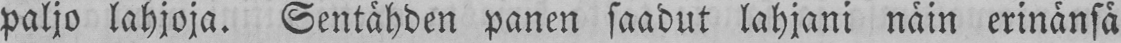paljo lahjoja. Sentähden panen saadut lahjani näin erinänsä
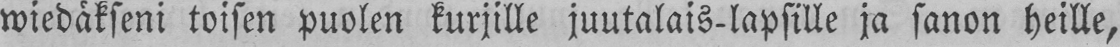wiedäkseni toisen puolen kurjille juutalais-lapsille ja sanon heille,
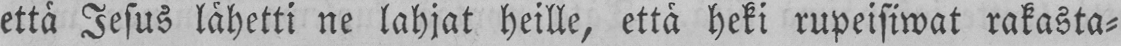että Jesus lähetti ne lahjat heille, että heki rupeisiwat rakasta-
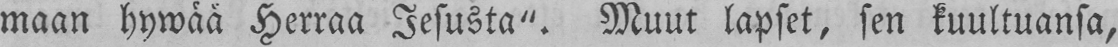maan hywää Herraa Jesusta". Muut lapset, sen kuultuansa,
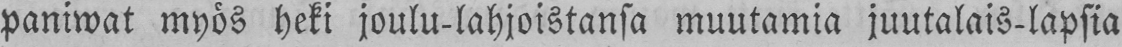paniwat myös heki joulu-lahjoistansa muutamia juutalais-lapsia
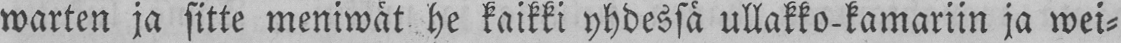warten ja sitte meniwät he kaikki yhdessä ullakko-kamariin ja wei-
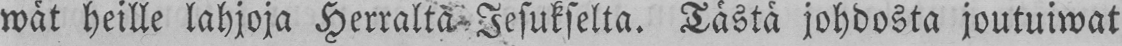wät heille lahjoja Herralta Jesukselta. Tästä johdosta joutuiwat
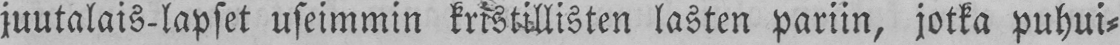juutalais-lapset useimmin kristillisten lasten pariin, jotka puhui-
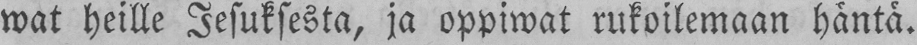wat heille Jesuksesta, ja oppiwat rukoilemaan häntä.
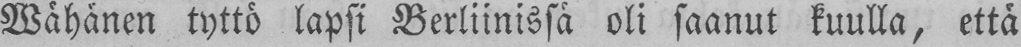Wähänen tyttö lapsi Berliinissä oli saanut kuulla, että
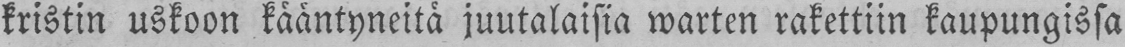kristin uskoon kääntyneitä juutalaisia warten rakettiin kaupungissa
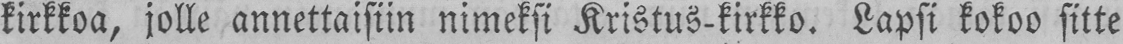kirkkoa, jolle annettaisiin nimeksi Kristus-kirkko. Lapsi kokoo sitte
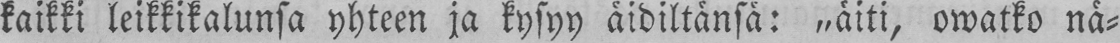kaikki leikkikalunsa yhteen ja kysyy äidiltänsä: ˶äiti, owatko nä-
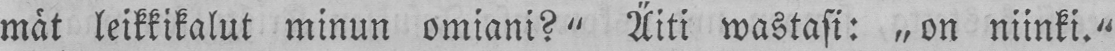mät leikkikalut minun omiani?" Äiti wastasi: ˶on niinki."
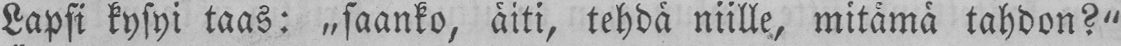Lapsi kysyi taas: ˶saanko, äiti, tehdä niille, mitämä tahdon?"
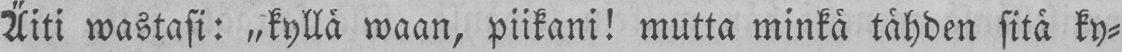Äiti wastasi: ˶kyllä waan, piikani! mutta minkä tähden sitä ky-
